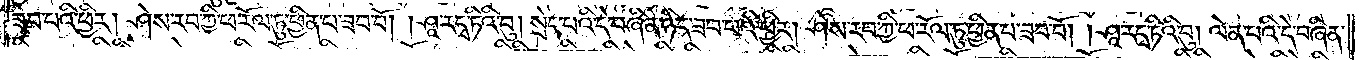ཟབ་པའི་ཕྱིར། ཤེས་རབ་ཀྱི་ཕ་རོལ་ཏུ་ཕྱིན་པ་ཟབ་བོ། །ཤཱ་ར་དྭ་ཏིའི་བུ། སྲེད་པའི་དེ་བཞིན་ཉིད་ཟབ་པའི་ཕྱིར། ཤེས་རབ་ཀྱི་ཕ་རོལ་ཏུ་ཕྱིན་པ་ཟབ་བོ། །ཤཱ་ར་དྭ་ཏིའི་བུ། ལེན་པའི་དེ་བཞིན་
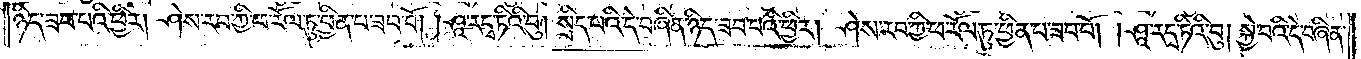ཉིད་ཟབ་པའི་ཕྱིར། ཤེས་རབ་ཀྱི་ཕ་རོལ་ཏུ་ཕྱིན་པ་ཟབ་བོ། །ཤཱ་ར་དྭ་ཏིའི་བུ། སྲིད་པའི་དེ་བཞིན་ཉིད་ཟབ་པའི་ཕྱིར། ཤེས་རབ་ཀྱི་ཕ་རོལ་ཏུ་ཕྱིན་པ་ཟབ་བོ། །ཤཱ་ར་དྭ་ཏིའི་བུ། སྐྱེ་བའི་དེ་བཞིན་
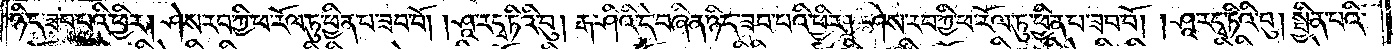ཉིད་ཟབ་པའི་ཕྱིར། ཤེས་རབ་ཀྱི་ཕ་རོལ་ཏུ་ཕྱིན་པ་ཟབ་བོ། །ཤཱ་ར་དྭ་ཏིའི་བུ། རྒ་ཤིའི་དེ་བཞིན་ཉིད་ཟབ་པའི་ཕྱིར། ཤེས་རབ་ཀྱི་ཕ་རོལ་ཏུ་ཕྱིན་པ་ཟབ་བོ། །ཤཱ་ར་དྭ་ཏིའི་བུ། སྦྱིན་པའི་
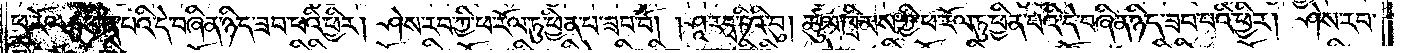ཕ་རོལ་ཏུ་ཕྱིན་པའི་དེ་བཞིན་ཉིད་ཟབ་པའི་ཕྱིར། ཤེས་རབ་ཀྱི་ཕ་རོལ་ཏུ་ཕྱིན་པ་ཟབ་བོ། །ཤཱ་ར་དྭ་ཏིའི་བུ། ཚུལ་ཁྲིམས་ཀྱི་ཕ་རོལ་ཏུ་ཕྱིན་པའི་དེ་བཞིན་ཉིད་ཟབ་པའི་ཕྱིར། ཤེས་རབ་
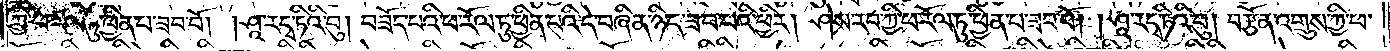ཀྱི་ཕ་རོལ་ཏུ་ཕྱིན་པ་ཟབ་བོ། །ཤཱ་ར་དྭ་ཏིའི་བུ། བཟོད་པའི་ཕ་རོལ་ཏུ་ཕྱིན་པའི་དེ་བཞིན་ཉིད་ཟབ་པའི་ཕྱིར། ཤེས་རབ་ཀྱི་ཕ་རོལ་ཏུ་ཕྱིན་པ་ཟབ་བོ། །ཤཱ་ར་དྭ་ཏིའི་བུ། བརྩོན་འགྲུས་ཀྱི་ཕ་
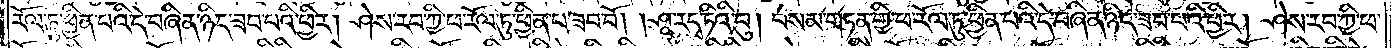རོལ་ཏུ་ཕྱིན་པའི་དེ་བཞིན་ཉིད་ཟབ་པའི་ཕྱིར། ཤེས་རབ་ཀྱི་ཕ་རོལ་ཏུ་ཕྱིན་པ་ཟབ་བོ། །ཤཱ་ར་དྭ་ཏིའི་བུ། བསམ་གཏན་གྱི་ཕ་རོལ་ཏུ་ཕྱིན་པའི་དེ་བཞིན་ཉིད་ཟབ་པའི་ཕྱིར། ཤེས་རབ་ཀྱི་ཕ་
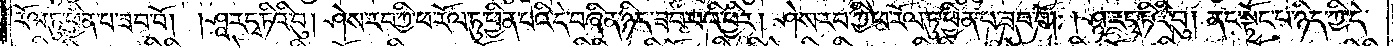རོལ་ཏུ་ཕྱིན་པ་ཟབ་བོ། །ཤཱ་ར་དྭ་ཏིའི་བུ། ཤེས་རབ་ཀྱི་ཕ་རོལ་ཏུ་ཕྱིན་པའི་དེ་བཞིན་ཉིད་ཟབ་པའི་ཕྱིར། ཤེས་རབ་ཀྱི་ཕ་རོལ་ཏུ་ཕྱིན་པ་ཟབ་བོ། །ཤཱ་ར་དྭ་ཏིའི་བུ། ནང་སྟོང་པ་ཉིད་ཀྱི་དེ་
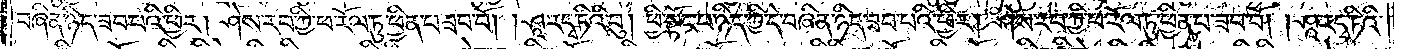བཞིན་ཉིད་ཟབ་པའི་ཕྱིར། ཤེས་རབ་ཀྱི་ཕ་རོལ་ཏུ་ཕྱིན་པ་ཟབ་བོ། །ཤཱ་ར་དྭ་ཏིའི་བུ། ཕྱི་སྟོང་པ་ཉིད་ཀྱི་དེ་བཞིན་ཉིད་ཟབ་པའི་ཕྱིར། ཤེས་རབ་ཀྱི་ཕ་རོལ་ཏུ་ཕྱིན་པ་ཟབ་བོ། །ཤཱ་ར་དྭ་ཏིའི་
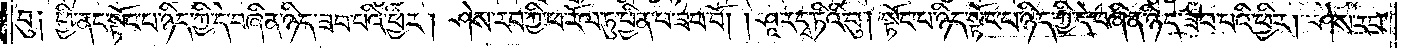བུ༑ ཕྱི་ནང་སྟོང་པ་ཉིད་ཀྱི་དེ་བཞིན་ཉིད་ཟབ་པའི་ཕྱིར། ཤེས་རབ་ཀྱི་ཕ་རོལ་ཏུ་ཕྱིན་པ་ཟབ་བོ། །ཤཱ་ར་དྭ་ཏིའི་བུ། སྟོང་པ་ཉིད་སྟོང་པ་ཉིད་ཀྱི་དེ་བཞིན་ཉིད་ཟབ་པའི་ཕྱིར། ཤེས་རབ་
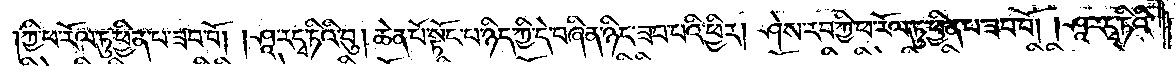ཀྱི་ཕ་རོལ་ཏུ་ཕྱིན་པ་ཟབ་བོ། །ཤཱ་ར་དྭ་ཏིའི་བུ། ཆེན་པོ་སྟོང་པ་ཉིད་ཀྱི་དེ་བཞིན་ཉིད་ཟབ་པའི་ཕྱིར། ཤེས་རབ་ཀྱི་ཕ་རོལ་ཏུ་ཕྱིན་པ་ཟབ་བོ། །ཤཱ་ར་དྭ་ཏིའི་
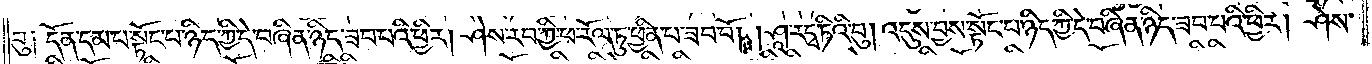བུ༑ དོན་དམ་པ་སྟོང་པ་ཉིད་ཀྱི་དེ་བཞིན་ཉིད་ཟབ་པའི་ཕྱིར། ཤེས་རབ་ཀྱི་ཕ་རོལ་ཏུ་ཕྱིན་པ་ཟབ་བོ། །ཤཱ་ར་དྭ་ཏིའི་བུ། འདུས་བྱས་སྟོང་པ་ཉིད་ཀྱི་དེ་བཞིན་ཉིད་ཟབ་པའི་ཕྱིར། ཤེས་
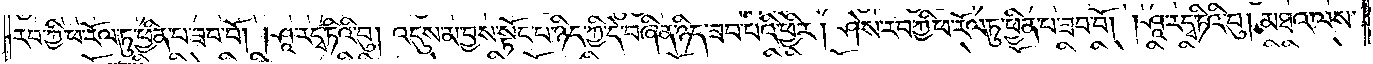རབ་ཀྱི་ཕ་རོལ་ཏུ་ཕྱིན་པ་ཟབ་བོ། །ཤཱ་ར་དྭ་ཏིའི་བུ། འདུས་མ་བྱས་སྟོང་པ་ཉིད་ཀྱི་དེ་བཞིན་ཉིད་ཟབ་པའི་ཕྱིར། ཤེས་རབ་ཀྱི་ཕ་རོལ་ཏུ་ཕྱིན་པ་ཟབ་བོ། །ཤཱ་ར་དྭ་ཏིའི་བུ། མཐའ་ལས་
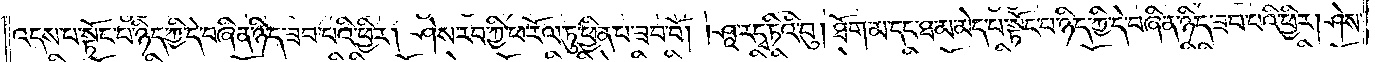འདས་པ་སྟོང་པ་ཉིད་ཀྱི་དེ་བཞིན་ཉིད་ཟབ་པའི་ཕྱིར། ཤེས་རབ་ཀྱི་ཕ་རོལ་ཏུ་ཕྱིན་པ་ཟབ་བོ། །ཤཱ་ར་དྭ་ཏིའི་བུ། ཐོག་མ་དང་ཐ་མ་མེད་པ་སྟོང་པ་ཉིད་ཀྱི་དེ་བཞིན་ཉིད་ཟབ་པའི་ཕྱིར། ཤེས་
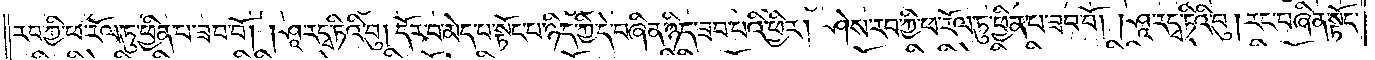རབ་ཀྱི་ཕ་རོལ་ཏུ་ཕྱིན་པ་ཟབ་བོ། །ཤཱ་རདྭ་ཏིའི་བུ། དོར་བ་མེད་པ་སྟོང་པ་ཉིད་ཀྱི་དེ་བཞིན་ཉིད་ཟབ་པའི་ཕྱིར། ཤེས་རབ་ཀྱི་ཕ་རོལ་ཏུ་ཕྱིན་པ་ཟབ་བོ། །ཤཱ་རདྭ་ཏིའི་བུ། རང་བཞིན་སྟོང་
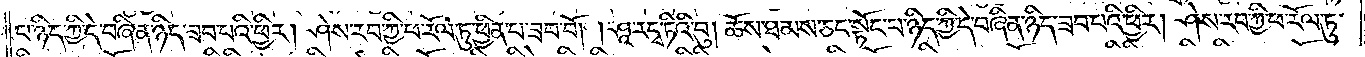པ་ཉིད་ཀྱི་དེ་བཞིན་ཉིད་ཟབ་པའི་ཕྱིར། ཤེས་རབ་ཀྱི་ཕ་རོལ་ཏུ་ཕྱིན་པ་ཟབ་བོ། །ཤཱ་རདྭ་ཏིའི་བུ། ཆོས་ཐམས་ཅད་སྟོང་པ་ཉིད་ཀྱི་དེ་བཞིན་ཉིད་ཟབ་པའི་ཕྱིར། ཤེས་རབ་ཀྱི་ཕ་རོལ་ཏུ་
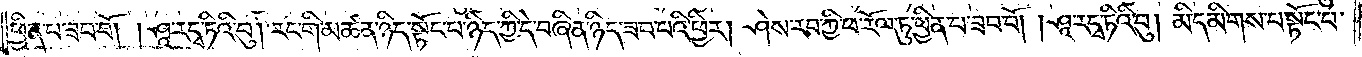ཕྱིན་པ་ཟབ་བོ། །ཤཱ་རདྭ་ཏིའི་བུ། རང་གི་མཚན་ཉིད་སྟོང་པ་ཉིད་ཀྱི་དེ་བཞིན་ཉིད་ཟབ་པའི་ཕྱིར། ཤེས་རབ་ཀྱི་ཕ་རོལ་ཏུ་ཕྱིན་པ་ཟབ་བོ། །ཤཱ་རདྭ་ཏིའི་བུ། མི་དམིགས་པ་སྟོང་པ་
